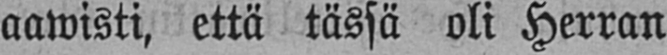aawisti, että tässä oli Herran
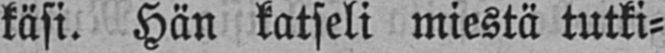käsi. Hän katseli miestä tutki-
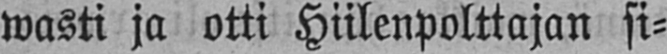wasti ja otti Hiilenpolttajan si-
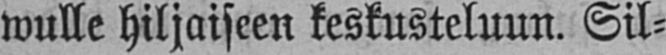wulle hiljaiseen keskusteluun. Sil-
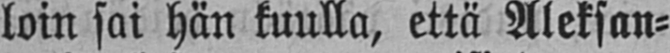loin sai hän kuulla, että Aleksan-
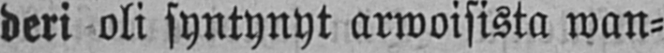deri oli syntynyt arwoisista wan-
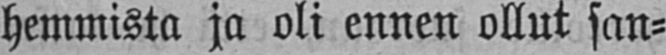hemmista ja oli ennen ollut san-
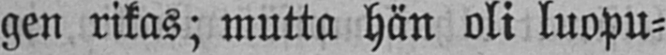gen rikas; mutta hän oli luopu-
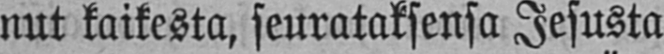nut kaikesta, seurataksensa Jesusta
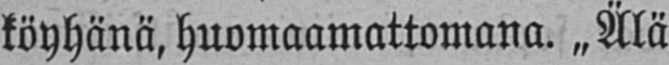köyhänä, huomaamattomana. „Älä
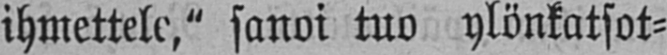ihmettele," sanoi tuo ylönkatsot-
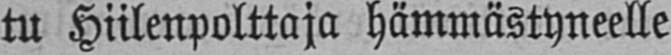tu Hiilenpolttaja hämmästyneelle
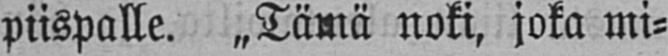piispalle. „Tämä noki, joka mi-
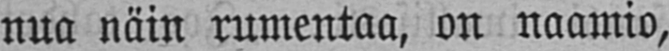nua näin rumentaa, on naamio,
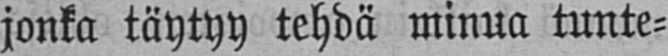jonka täytyy tehdä minua tunte-
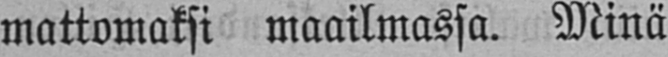mattomaksi maailmassa. Minä
